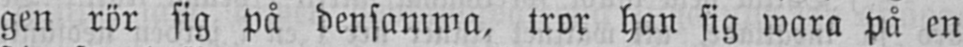gen rör sig på densamma, tror han sig wara på en
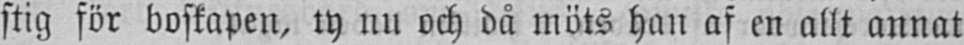stig för boskapen, ty nu och då möts han af en allt annat
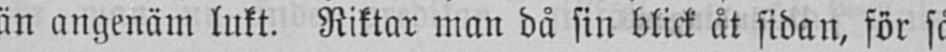än angenäm lukt. Riktar man då sin blick åt sidan, för så
